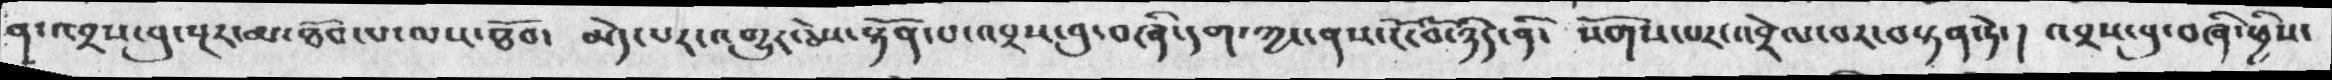ན་འབྲས་བུ་སྔར་མ་ཐོབ་པ་ལས་ཐོབ་  མེད་པར་འགྱུར་ཅེས་འགྱུར་ཅེས་སྟོན་པ་འབྲས་བུ་བཞི་དག་ཀྱང་ནས་ངོ་བོ་ཉིད་ནི་ སོགས་པར་འབྲེལ་བར་བསྟན་ཏེ་།  འབྲས་བུ་བཞི་ཕྱིས་
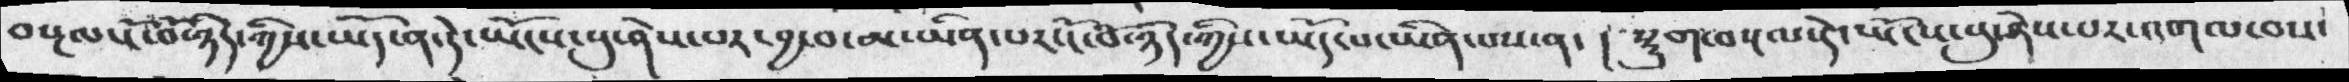བསྔལ་ངོ་བོ་ཉིད་ཀིས་ཡོད་ན་དེ་ཡོངས་སུ་ཤེས་པར་བྱ་བ་མ་ཡིན་པར་ངོ་བོ་ཉིད་ཀྱིས་ཡོད་པ་ཡིན་པས་ན་། སྡུག་བསྔལ་དེ་ཡོངས་སུ་ཤེས་པར་འགལ་བས་
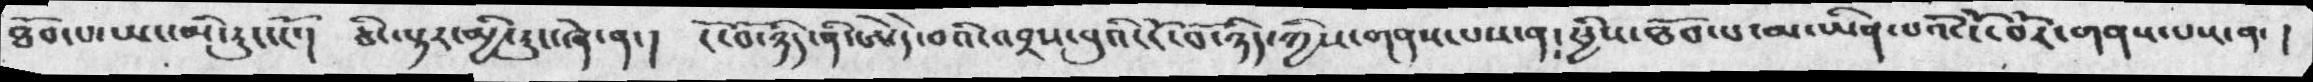ཐོབ་པ་ཡང་མི་རུང་ངོ་།. ཅི་ལྟར་མྱི་རུང་ཞེ་ན་།  ངོ་བོ་ཉིད་ནི་ཨེདེ་བའི་འབྲས་བུའི་ངོ་བོ་ཉིད་ཀྱིས་གནས་པས་ན། ཕྱིས་ཐོབ་པ་མ་ཡིན་པའི་ངོ་བོར་གནས་པས་ན་།
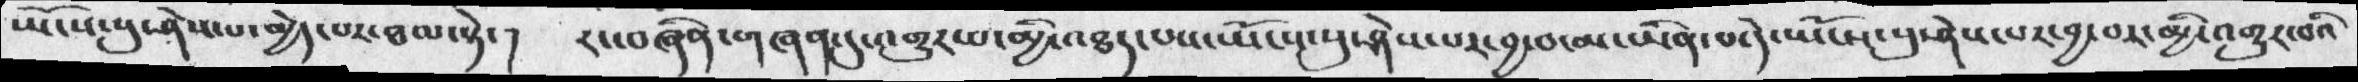ཡོངས་སུ་ཤེས་པ་མྱེད་པར་ཐལ་སྟེ་།  རང་བཞིན་གཞན་དུ་འགྱུར་པ་མྱི་འཐད་པས་ཡོངས་སུ་ཤེས་པར་བྱ་བ་མ་ཡིན་པ་དེ་ཡོངས་སུ་ཤེས་པར་བྱ་བར་མྱི་འགྱུར་བའི
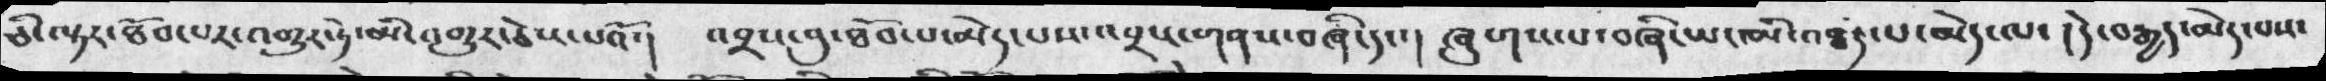ཅི་ལྟར་ཐོབ་པར་འགྱུར་ཏེ་མི་འགྱུར་ཅེས་པའོ་།  འབྲས་བུ་ཐོབ་པ་མེད་པས་འབྲས་གནས་བཞི་དང་།  ཞུགས་པ་བཞི་ཡང་མི་འཐད་པ་མེད་ལ་། དེ་བརྒྱད་མེད་པས་
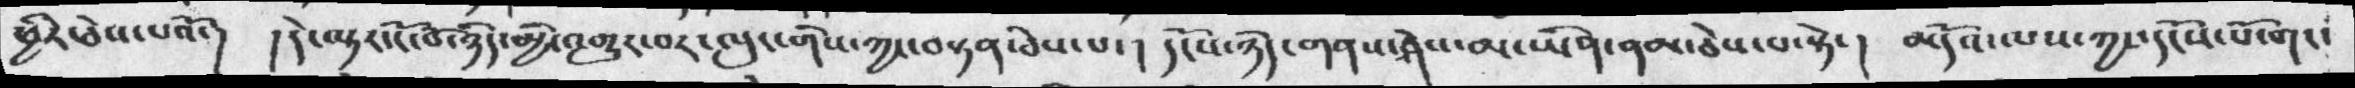ཕྱིར་ཅེས་པའོ་།  །དེ་ལྟར་ངོ་བོ་ཉིད་མྱི་འགྱུར་བར་ལུང་གིས་ཀྱང་བསྟན་ཅེས་པ་།  དངོས་ཉིད་གནས་ཤེས་མ་ཡིན་ནམ་ཅེས་པ་སྟེ་། མདོའ་ལས་ཀྱང་དངོས་པོ་གང་
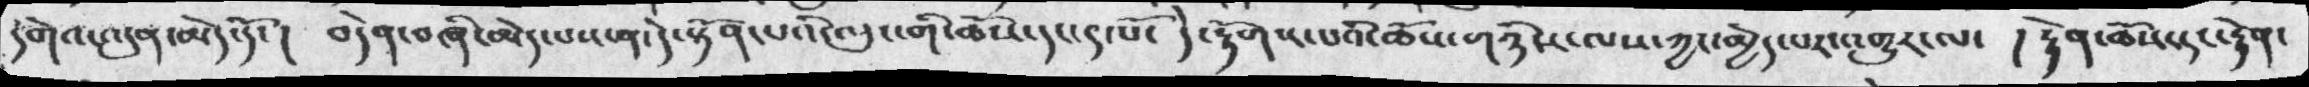དགེའ་འདུན་མེད་དོ་། བདེན་བཞི་མེད་པས་ན་དེ་སྟོན་པའི་ལུང་གི་ཆོས་དང་༩་པོ་ དེ་རྟོགས་པའི་ཆོས་གཉིས་ལས་ཀྱང་མྱེད་པར་འགྱུར་ལ་ ། རྟེན་ཆོས་དང་རྟེན་
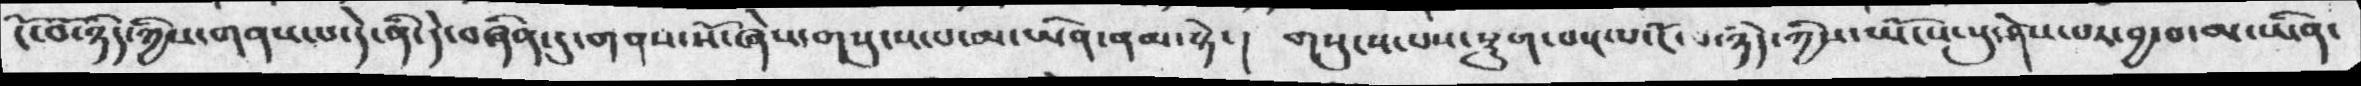ངོ་བོ་ཉིད་ཀྱིས་གནས་པ་དེ་ནི་དེ་བཞིན་དུ་གནས་སོ་ཞེས་གསུངས་པ་མ་ཡིན་ནམ་སྟེ་།  གསུངས་པས་སྡུག་བསྔལ་ངོ་པ་ཉིད་ཀྱིས་ཡོངས་སུ་ཤེས་པར་བྱ་བ་མ་ཡིན་
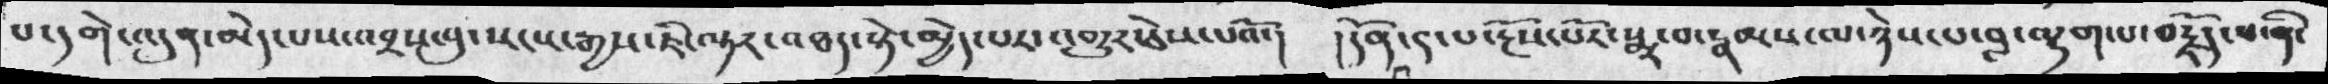པ་དགེ་འདུན་མེད་པས་འབྲས་བུ་སངས་རྒྱས་ཇི་ལྟར་འཐད་སྟེ་མྱེད་པར་འགྱུར་ཅེས་པའོ་།  །དོན་༩་པ་རྔོས་པོར་སྨྲ་བ་རྣམས་ལ་ཉེས་པ་བླ་ལྷག་པ་བརྗོད་པ་ནི་
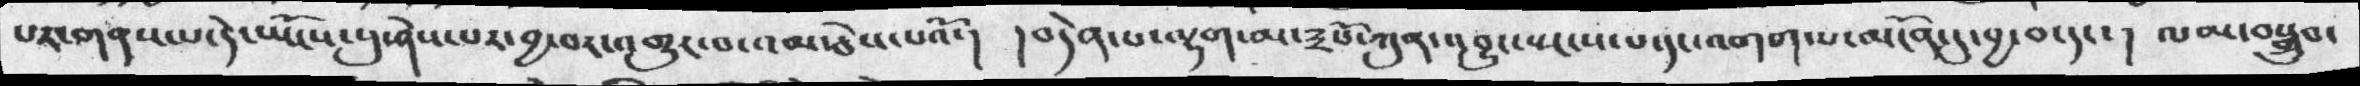པར་གནས་པ་དེ་ཡོངས་སུ་ཤེས་པར་བྱ་བར་འགྱུར་བ་འམ་ཅེས་པའོ་། །བདེན་པ་ལྷག་མ་༣པོ་ཀུན་འབྱུང་སྤངས་པ་དང་འགག་པ་མངོན་དུ་བྱ་བ་དང་། ལམ་བསྒྲུབ་
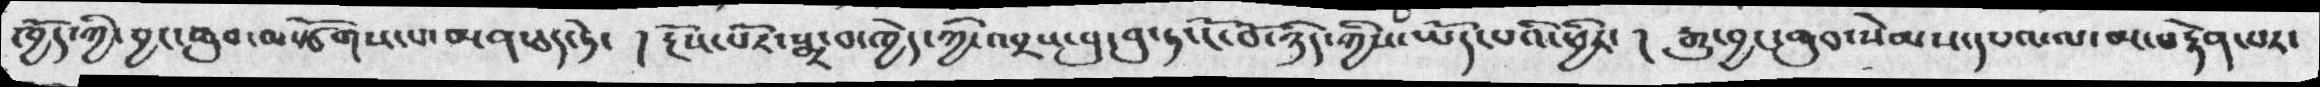ཁྱོད་ཀྱི་བྱང་ཆུབ་ལསྩོགས་པ་མན་ཅད་ཏེ་ །རྔོས་པོར་སྨྲ་བ་ཁྱེད་ཀྱི་འབྲས་བུ་བུ་ཏ་ངོ་བོ་ཉིད་ཀྱིས་ཡོད་པའི་ཕྱིར་། རྒྱུ་བྱང་ཆུབ་སེམས་དཔའ་ལ་མ་བརྟེན་པར་
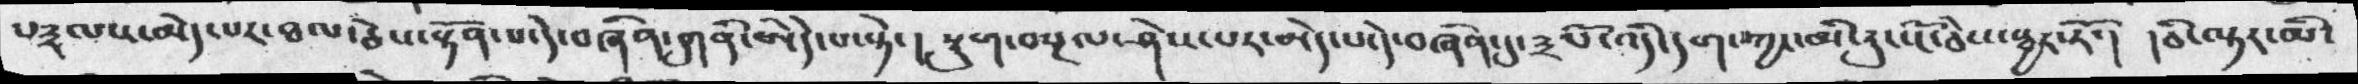པ༣ལས་མེད་པར་ཐལ་ཅེས་སྟོན་པ་དེ་བཞིན་དུ་ནི་ཨེདེ་པ་སྟེ་། སྡུག་བསྔལ་ཤེས་པར་མེད་པ་དེ་བཞིན་དུ་༣པོ་འདི་དག་ཀྱང་མི་རུང་ངོ་ཅེས་སྦྱར་རོ་། །ཅི་ལྟར་མི་
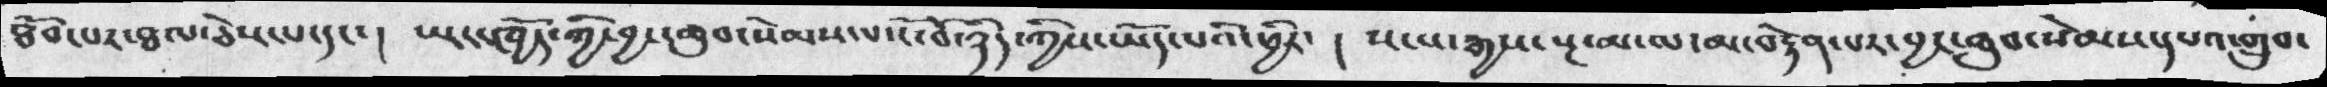ཐོབ་པར་ཐལ་ཅེས་པ་དང་།  ཡང་ཁྱོད་ཀྱི་བྱང་ཆུབ་སེམས་པ་ངོ་བོ་ཉིད་ཀྱིས་ཡོད་པའི་ཕྱིར་། སངས་རྒྱས་སྔ་མ་ལ་བརྟེན་པར་བྱང་ཆུབ་སེམས་དཔའ་གྲུབ་
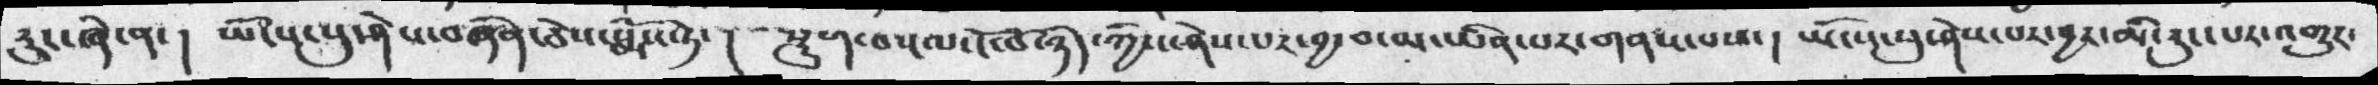རུང་ཞེ་ན་། ཡོངས་སུ་ཤེས་བཞིན་ཅེས་སྨོས་ཏེ་། སྡུག་བསྔལ་ངོ་བོ་ཉིད་ཀྱིས་ཤེས་པར་བྱ་བ་མ་ཡིན་པར་གནས་པས་།  ཡོངས་སུ་ཤེས་པར་བྱར་མི་རུང་པར་འགྱུར་
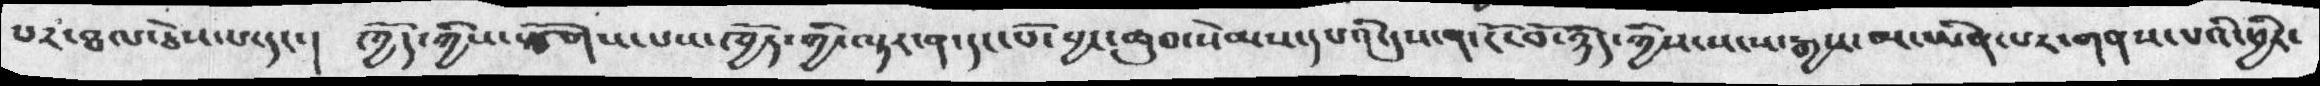པར་ཐལ་ཅེས་པ་དང་།  ཁྱོད་ཀྱིས་སྩོགས་པས་ཁྱོས་ཀྱི་ལྟར་ན་དང་པོ་བྱང་ཆུབ་སེམས་དཔའི་དུས་ན་ངོ་བོ་ཉིད་ཀྱིས་སངས་རྒྱས་མ་ཡིན་པར་གནས་པའི་ཕྱིར་
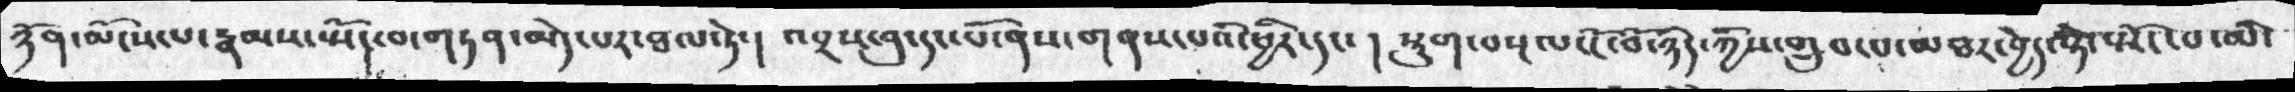ཉོན་མོངས་པ་རྣམས་སྤོང་བ་གཏན་མེད་པར་ཐལ་ཏེ་།  འབྲས་བུ་དང་པོ་ནས་གནས་པའི་ཕྱིར་དང་། སྡུག་བསྔལ་ངོ་བོ་ཉིད་ཀྱིས་གྲུབ་པ་མཐར་བྱེད་སྟེ་སྤོང་པ་མི་
